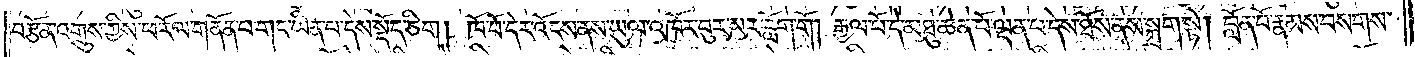བརྩོན་འགྲུས་ཀྱིས་ཕ་རོལ་གནོན་པ་གང་ཡིན་པ་དེས་སྡོད་ཅིག །ཁོ་བོ་དེར་འོངས་ནས་ཡུལ་འཁོར་བུར་མར་རློག་གོ །རྒྱལ་པོ་དེ་མཐུ་ཆེན་པོ་ལྡན་པ་དེས་ཐོས་ནས་སྐྲག་སྟེ། བློན་པོ་རྣམས་བསགས་
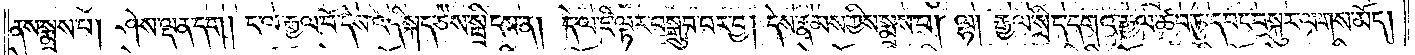ནས་སྨྲས་པ། ཤེས་ལྡན་དག །ང་ལ་རྒྱལ་པོ་དེས་འདི་སྐད་ཅེས་སྤྲིངས་ན། དེ་ལ་ཇི་ལྟར་བསྒྲུབ་པར་བྱ། དེས་རྣམས་ཀྱིས་སྨྲས་པ། ལྷ། རྒྱལ་སྲིད་དགའ་རྒྱལ་ཚབ་ཏུ་དབང་བསྐུར་ལགས་མོད།
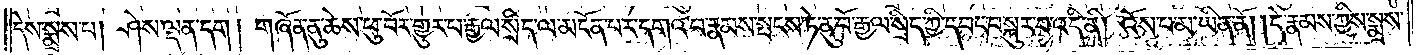དེས་སྨྲས་པ། ཤེས་ལྡན་དག །གཞོན་ནུ་ཆེས་ཕུ་བོར་གྱུར་པ་རྒྱལ་སྲིད་ལ་མངོན་པར་དགའ་བ་རྣམས་སྤངས་ཏེ་ནུ་བོ་རྒྱལ་སྲིད་ཀྱི་དབང་བསྐུར་བ་འདི་ནི། འོས་པ་མ་ཡིན་ནོ། །དེ་རྣམས་ཀྱིས་སྨྲས་
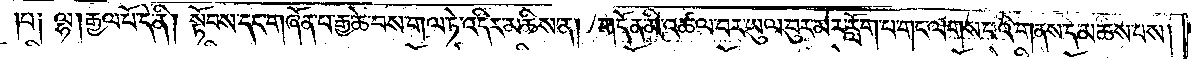པ༑ ལྷ། རྒྱལ་པོ་དེ་ནི། སྟོབས་དང་གཞོན་པ་རྒྱ་ཆེ་བས་གལ་ཏེ་འདིར་མཆིས་ན། གདོན་མི་འཚལ་བར་ཡུལ་བུར་མར་རློག་པ་གང་ལགས་པའི་གནས་དེ་མཆིས་པས།
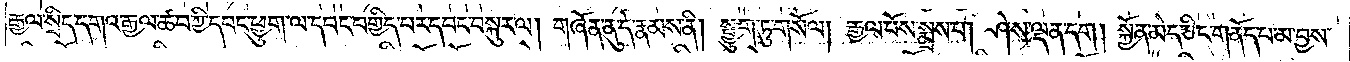རྒྱལ་སྲིད་དགའ་རྒྱལ་ཚབ་ཀྱི་དབང་ཕྱུག་ལ་དབང་བགྱིད་པར་དབང་བསྐུར་ལ། གཞོན་ནུ་དེ་རྣམས་ནི། སྤྱུག་ཏུ་གསོལ། རྒྱལ་པོས་སྨྲས་པ། ཤེས་ལྡན་དག། སྐྱོན་མེད་ཅིང་གནོད་པ་མ་བྱས་
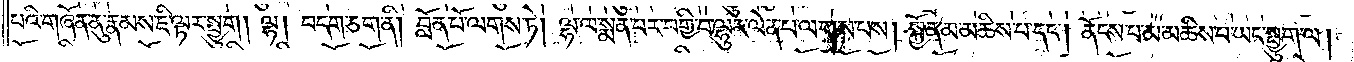པའི་གཞོན་ནུ་རྣམས་ཇི་ལྟར་སྤྱུག །ལྷ། བདག་ཅག་ནི། བློན་པོ་ལགས་ཏེ། ལྷ་ལ་སྨན་པར་བགྱི་བ་ལྷུར་ལེན་པ་ལགས་པས། སྐྱོན་མ་མཆིས་པ་དང༌། ནོངས་པ་མ་མཆིས་པ་ཡང་སྤྱུག་ལ།
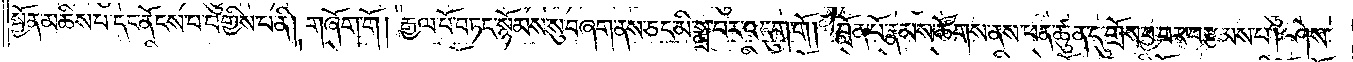སྐྱོན་མཆིས་པ་དང་ནོངས་པ་བགྱིས་པ་ནི། གཞོག་གོ །རྒྱལ་པོ་བཏང་སྙོམས་སུ་བཞག་ནས་ཅང་མི་སྨྲ་བར་འདུག་གོ །བློན་པོ་རྣམས་ཚོགས་ནས་ཕན་ཚུན་དུ་གྲོས་བྱ་བར་བརྩམས་པ། ཤེས་
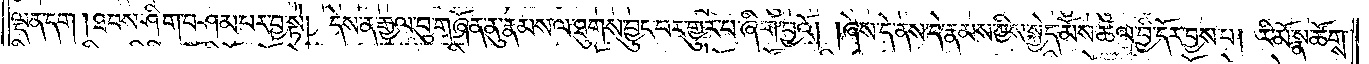ལྡན་དག །ཐབས་ཤིག་བཤམ་པར་བྱ་སྟེ། དེས་ན་རྒྱལ་བུ་གཞོན་ནུ་རྣམས་ལ་ཐུགས་བྱུང་བར་གྱུར་པ་ཞིག་བྱའོ། །ཞེས་དེ་ནས་དེ་རྣམས་ཀྱིས་སྐྱེད་མོས་ཚལ་བྱི་དོར་བྱས་པ། རི་མོ་སྣ་ཚོགས་
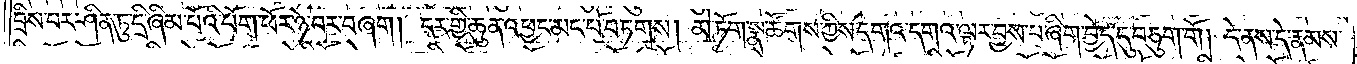བྲིས་པར་ཤིན་ཏུ་དྲི་ཞིམ་པོའི་པོག་ཕོར་ཉེ་བར་བཞག །དར་གྱི་ཆུན་འཕྱང་མང་པོ་བཏགས། མེ་ཏོག་སྣ་ཚོགས་ཀྱིས་དགའ་དགའ་ལྟར་བྱས་པ་ཞིག་བྱེད་དུ་བཅུག་གོ །དེ་ནས་དེ་རྣམས་
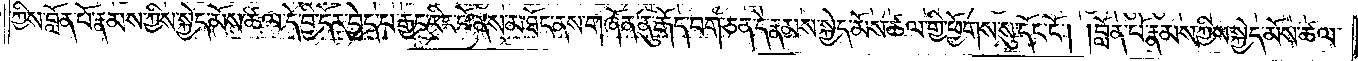ཀྱིས་བློན་པོ་རྣམས་ཀྱིས་སྐྱེད་མོས་ཚལ་དེ་བྱི་དོར་བྱེད་པ་རྒྱང་རིང་པོ་ནས་མཐོང་ནས་གཞོན་ནུ་རྒོད་བག་ཅན་དེ་རྣམས་སྐྱེད་མོས་ཚལ་གྱི་ཕྱོགས་སུ་དོང་ངོ༌། །བློན་པོ་རྣམས་ཀྱིས་སྐྱེད་མོས་ཚལ་
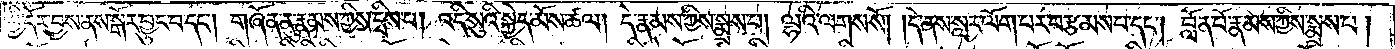བྱི་དོར་བྱས་ནས་སྒོར་བྱུང་བ་དང༌། གཞོན་ནུ་རྣམས་ཀྱིས་དྲིས་པ། འདི་སུའི་སྐྱེད་མོས་ཚལ། དེ་རྣམས་ཀྱིས་སྨྲས་པ། ལྷའི་ལགས་སོ། །དེ་ནས་སླར་ལོག་པར་བརྩམས་པ་དང༌། བློན་པོ་རྣམས་ཀྱིས་སྨྲས་པ།
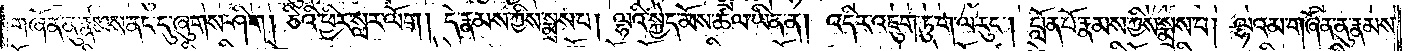གཞོན་ནུ་རྣམས་ནང་དུ་ཞུགས་ཤིག །ཅིའི་ཕྱིར་སླར་ལོག །དེ་རྣམས་ཀྱིས་སྨྲས་པ། ལྷའི་སྐྱེད་མོས་ཚལ་ཡིན་ན། འདིར་འཇུག་ཏུ་ག་ལ་རུང༌། བློན་པོ་རྣམས་ཀྱིས་སྨྲས་པ། ལྷའམ་གཞོན་ནུ་རྣམས་
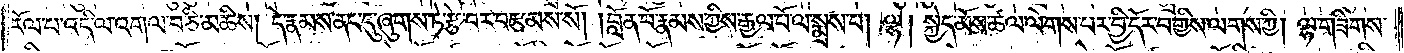རོལ་པ་འདི་ལ་འགལ་བ་ཅི་མཆིས། དེ་རྣམས་ནང་དུ་ཞུགས་ཏེ་རྩེ་བར་བརྩམས་སོ། །བློན་པོ་རྣམས་ཀྱིས་རྒྱལ་པོ་ལ་སྨྲས་པ། ལྷ། སྐྱེད་མོས་ཚལ་ལེགས་པར་བྱི་དོར་བགྱིས་ལགས་ཀྱི། ལྷ་གཟིགས་
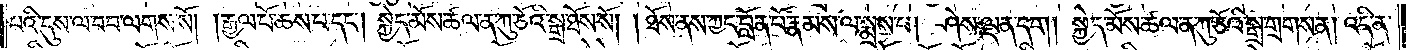པའི་དུས་ལ་བབ་ལགས་སོ། །རྒྱལ་པོ་ཆས་པ་དང༌། སྐྱེད་མོས་ཚལ་ན་ཀུ་ཙེའི་སྒྲ་ཐོས་སོ། །ཐོས་ནས་ཀྱང་བློན་པོ་རྣམས་ལ་སྨྲས་པ། ཤེས་ལྡན་དག །སྐྱེད་མོས་ཚལ་ན་ཀུ་ཅོའི་སྒྲ་གྲགས་ན། འདི་ན་
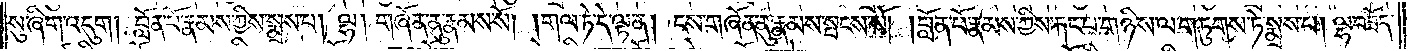སུ་ཞིག་འདུག །བློན་པོ་རྣམས་ཀྱིས་སྨྲས་པ། ལྷ། གཞོན་ནུ་རྣམས་སོ། །གལ་ཏེ་དེ་ལྟ་ན། ངས་གཞོན་ནུ་རྣམས་སྤངས་སོ། །བློན་པོ་རྣམས་ཀྱིས་རྐང་པ་གཉིས་ལ་གཏུགས་ཏེ་སྨྲས་པ། ལྷ་བཟོད་
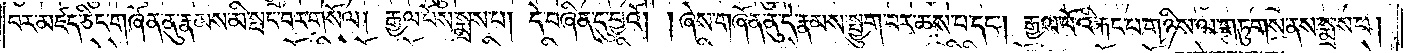བར་མཛད་ཅིང་གཞོན་ནུ་རྣམས་མི་སྤང་བར་གསོལ། རྒྱལ་པོས་སྨྲས་པ། དེ་བཞིན་དུ་བྱའོ། །ཞེས་གཞོན་ནུ་དེ་རྣམས་སྤྱུག་པར་ཆས་པ་དང༌། རྒྱལ་པོའི་རྐང་པ་གཉིས་ལ་གཏུགས་ནས་སྨྲས་པ།
